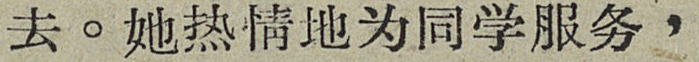去。她热情地为同学服务，
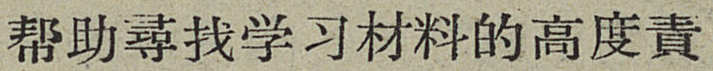帮助尋找学习材料的高度責
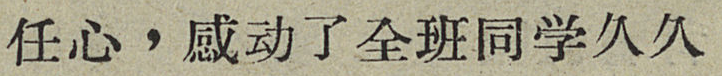任心，感动了全班同学久久
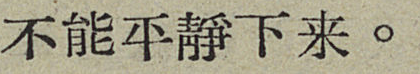不能平靜下来。
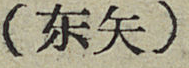（东矢）
